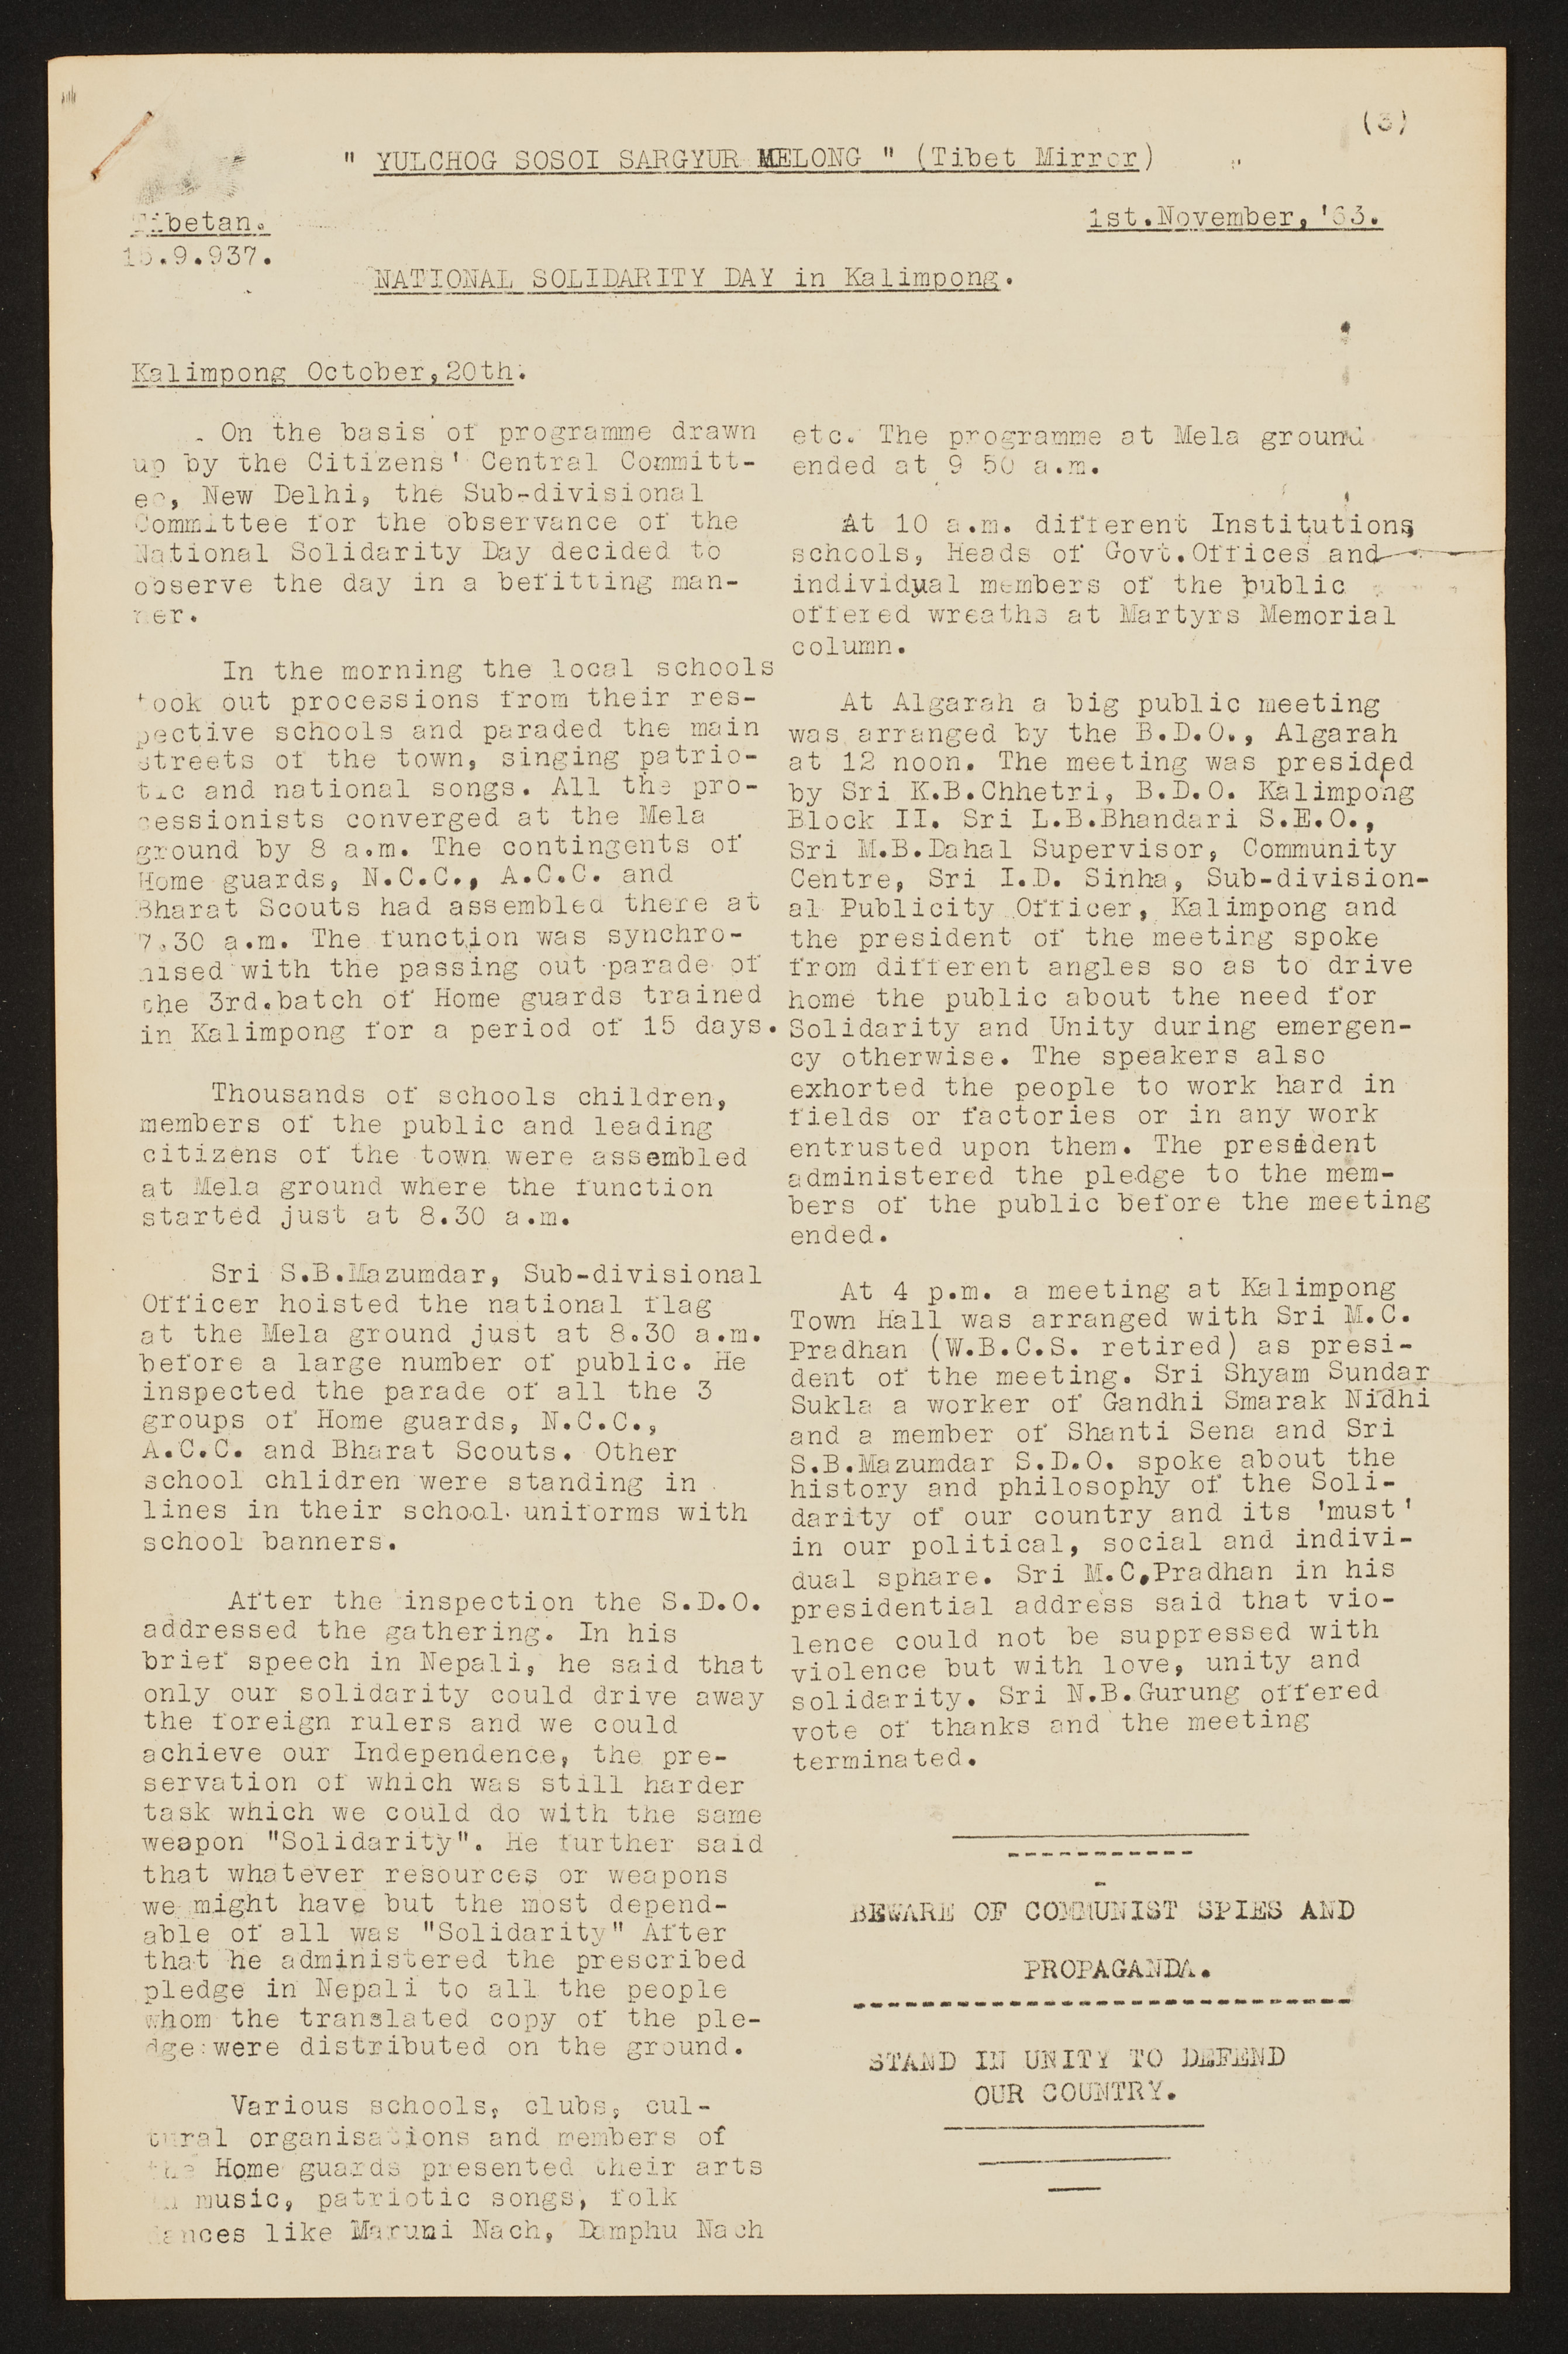(3)
" YULCHOG SOSOI SARGYUR MELONG " (Tibet Mirror)
Tibetan.
15.9.937.
NATIONAL SOLIDARITY DAY in Kalimpong.
1st. November, '63.
Kalimpong October, 20th.
On the basis of programme drawn
up by the Citizens Central Committ-
ee, New Delhi, the Sub-divisional
Committee for the observance of the
National Solidarity Day decided to
observe the day in a befitting man-
er.
In the morning the local schools
took out processions from their res-
pective schools and paraded the main
streets of the town, singing patrio-
tic and national songs. All the pro-
cessionists converged at the Mela
ground by 8 a.m. The contingents of
Home guards, N.C.C., A.C.C. and
Bharat Scouts had assembled there at
7.30 a.m. The function was synchro-
nised with the passing out parade of
the 3rd batch of Home guards trained
in Kalimpong for a period of 15 days.
Thousands of schools children,
members of the public and leading
citizens of the town were assembled
at Mela ground where the function
started just at 8.30 a.m.
Sri S.B. Mazumdar, Sub-divisional
Officer hoisted the national flag
at the Mela ground just at 8.30 a.m.
before a large number of public. He
inspected the parade of all the 3
groups of Home guards, N.C.C.
A.C.C. and Bharat Scouts. Other
school chlidren were standing in
lines in their school uniforms with
school banners.
After the inspection the S.D.O.
addressed the gathering. In his
brief speech in Nepali, he said that
only our solidarity could drive away
the foreign rulers and we could
achieve our Independence, the pre-
servation of which was still harder
task which we could do with the same
weapon "Solidarity. He further said
that whatever resources or weapons
we might have but the most depend-
able of all was "Solidarity After
that he administered the prescribed
pledge in Nepali to all the people
whom the translated copy of the ple-
dge were distributed on the ground.
Various schools, clubs, cul-
tural organisations and members of
the Home guards presented their arts
in music, patriotic songs, folk
dances like Maruni Nach, Damphu Nach
etc. The programme at Mela ground
ended at 9 50 a.m.
At 10 a.m. different Institutions,
schools, Heads of Govt. Offices and
individual members of the public
offered wreaths at Martyrs Memorial
column.
At Algarah a big public meeting
was arranged by the B.D.O., Algarah
at 12 noon. The meeting was presided
by Sri K.B.Chhetri, B.D.O. Kalimpong
Block II. Sri L.B.Bhandari S.E.O.,
Sri M.B. Dahl Supervisor, Community
Centre, Sri I.D. Sinha, Sub-division-
al Publicity Officer, Kalimpong and
the president of the meeting spoke
from different angles so as to drive
home the public about the need for
Solidarity and Unity during emergen-
cy otherwise. The speakers also
exhorted the people to work hard in
fields or factories or in any work
entrusted upon them. The president
administered the pledge to the mem-
bers of the public before the meeting
ended.
At 4 p.m. a meeting at Kalimpong
Town Hall was arranged with Sri M.C.
Pradhan (W.B.C.S. retired) as presi-
dent of the meeting. Sri Shyam Sundar
Sukla a worker of Gandhi Smarak Nidhi
and a member of Shanti Sena and Sri
S.B.Mazundar S.D.O. spoke about the
history and philosophy of the Soli-
darity of our country and its 'must'
in our political, social and indivi-
dual sphare. Sri M.C.Pradhan in his
presidential address said that vio-
lence could not be suppressed with
violence but with love, unity and
solidarity. Sri N.B. Gurung offered
vote of thanks and the meeting
terminated.
BEWARE OF COMMUNIST SPIES AND
PROPAGANDA.
STAND IN UNITY TO DEFEND
OUR COUNTRY.
